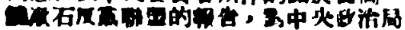饒漱石反黨聯盟的報告，對中央政治局
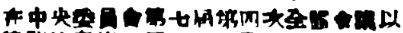在中央委員會第七屆第四次全體會議以
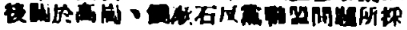後關於高崗、饒漱石反黨聯盟問題所採
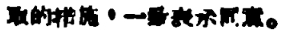取的措施，一致表示同意。
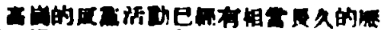高崗的反黨活動已經有相當長久的歷
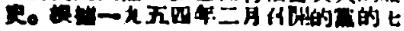史。根據一九五四年二月召開的黨的七
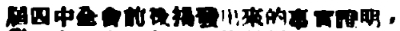屆四中全會前後揭發出來的事實證明，
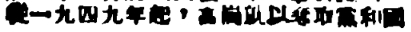從一九四九年七，高崗就以奪取黨和國
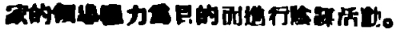家的領導權力爲目的而進行陰謀活動。
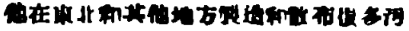他在東北和其他地方製造和散布很多污
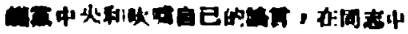衊黨中央和吹噓自己的謠言，在同志中
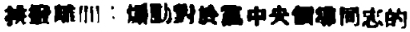挑撥離間：煽動對於黨中央領導同志的
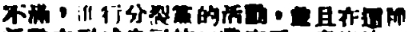不滿，進行分裂黨的活動，並且在這種
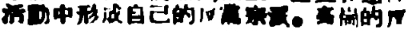活動中形成自己的反黨宗派。高崗的反
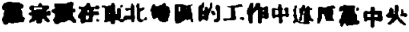黨宗派在東北地區的工作中違反黨中央
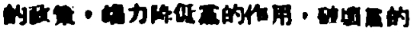的政策，竭力降低黨的作用，破壞黨的
